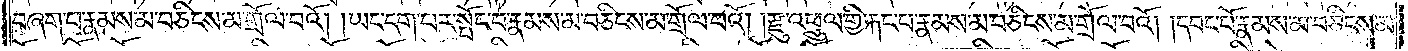བཞག་པ་རྣམས་མ་བཅིངས་མ་གྲོལ་བའོ། །ཡང་དག་པར་སྤོང་བ་རྣམས་མ་བཅིངས་མ་གྲོལ་བའོ། །རྫུ་འཕྲུལ་གྱི་རྐང་པ་རྣམས་མ་བཅིངས་མ་གྲོལ་བའོ། །དབང་པོ་རྣམས་མ་བཅིངས་མ་
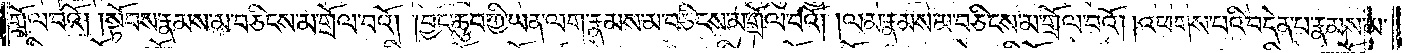གྲོལ་བའོ། །སྟོབས་རྣམས་མ་བཅིངས་མ་གྲོལ་བའོ། །བྱང་ཆུབ་ཀྱི་ཡན་ལག་རྣམས་མ་བཅིངས་མ་གྲོལ་བའོ། །ལམ་རྣམས་མ་བཅིངས་མ་གྲོལ་བའོ། །འཕགས་པའི་བདེན་པ་རྣམས་མ་
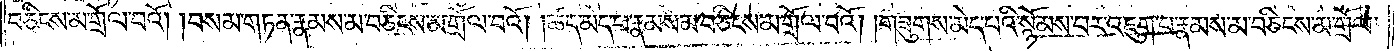བཅིངས་མ་གྲོལ་བའོ། །བསམ་གཏན་རྣམས་མ་བཅིངས་མ་གྲོལ་བའོ། །ཚད་མེད་པ་རྣམས་མ་བཅིངས་མ་གྲོལ་བའོ། །གཟུགས་མེད་པའི་སྙོམས་པར་འཇུག་པ་རྣམས་མ་བཅིངས་མ་གྲོལ་
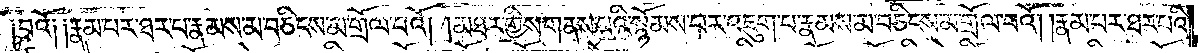བའོ༑ ༑རྣམ་པར་ཐར་པ་རྣམས་མ་བཅིངས་མ་གྲོལ་བའོ། །མཐར་གྱིས་གནས་པའི་སྙོམས་པར་འཇུག་པ་རྣམས་མ་བཅིངས་མ་གྲོལ་བའོ། །རྣམ་པར་ཐར་པའི་
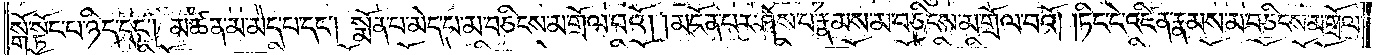སྒོ་སྟོང་པ་ཉིད་དང༌། མཚན་མ་མེད་པ་དང༌། སྨོན་པ་མེད་པ་མ་བཅིངས་མ་གྲོལ་བའོ། །མངོན་པར་ཤེས་པ་རྣམས་མ་བཅིངས་མ་གྲོལ་བའོ། །ཏིང་ངེ་འཛིན་རྣམས་མ་བཅིངས་མ་གྲོལ་
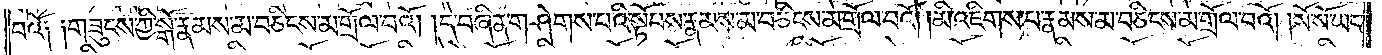བའོ༑ ༑གཟུངས་ཀྱི་སྒོ་རྣམས་མ་བཅིངས་མ་གྲོལ་བའོ། །དེ་བཞིན་གཤེགས་པའི་སྟོབས་རྣམས་མ་བཅིངས་མ་གྲོལ་བའོ། །མི་འཇིགས་པ་རྣམས་མ་བཅིངས་མ་གྲོལ་བའོ། །སོ་སོ་ཡང་
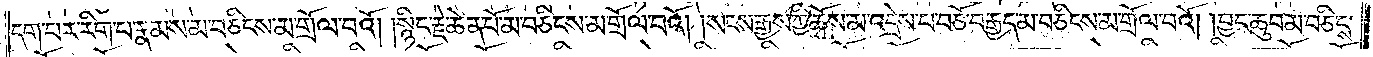དག་པར་རིག་པ་རྣམས་མ་བཅིངས་མ་གྲོལ་བའོ། །སྙིང་རྗེ་ཆེན་པོ་མ་བཅིངས་མ་གྲོལ་བའོ། །སངས་རྒྱས་ཀྱི་ཆོས་མ་འདྲེས་པ་བཅོ་བརྒྱད་མ་བཅིངས་མ་གྲོལ་བའོ། །བྱང་ཆུབ་མ་བཅིངས་
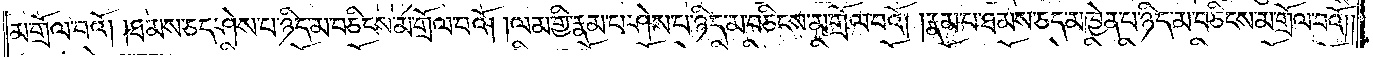མ་གྲོལ་བའོ། ཐམས་ཅད་ཤེས་པ་ཉིད་མ་བཅིངས་མ་གྲོལ་བའོ། །ལམ་གྱི་རྣམ་པ་ཤེས་པ་ཉིད་མ་བཅིངས་མ་གྲོལ་བའོ། །རྣམ་པ་ཐམས་ཅད་མཁྱེན་པ་ཉིད་མ་བཅིངས་མ་གྲོལ་བའོ། །
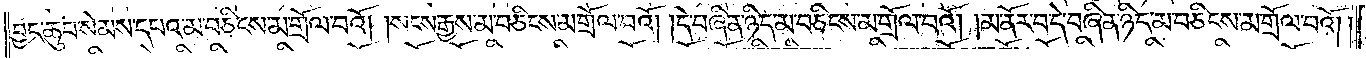བྱང་ཆུབ་སེམས་དཔའ་མ་བཅིངས་མ་གྲོལ་བའོ། །སངས་རྒྱས་མ་བཅིངས་མ་གྲོལ་བའོ། །དེ་བཞིན་ཉིད་མ་བཅིངས་མ་གྲོལ་བའོ། །མ་ནོར་བ་དེ་བཞིན་ཉིད་མ་བཅིངས་མ་གྲོལ་བའོ༎
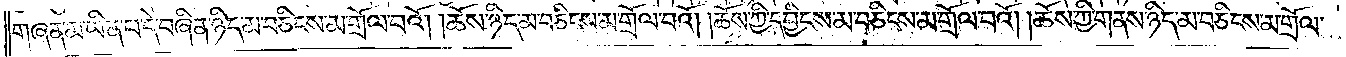གཞན་མ་ཡིན་པ་དེ་བཞིན་ཉིད་མ་བཅིངས་མ་གྲོལ་བའོ། །ཆོས་ཉིད་མ་བཅིངས་མ་གྲོལ་བའོ། །ཆོས་ཀྱི་དབྱིངས་མ་བཅིངས་མ་གྲོལ་བའོ། །ཆོས་ཀྱི་གནས་ཉིད་མ་བཅིངས་མ་གྲོལ་
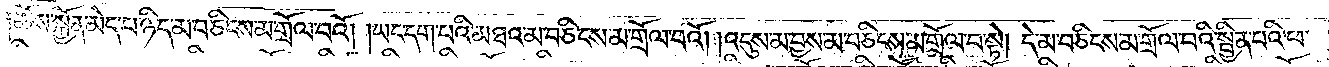ཆོས་སྐྱོན་མེད་པ་ཉིད་མ་བཅིངས་མ་གྲོལ་བའོ། ཡང་དག་པའི་མཐའ་མ་བཅིངས་མ་གྲོལ་བའོ། འདུས་མ་བྱས་མ་བཅིངས་མ་གྲོལ་བ་སྟེ། །དེ་མ་བཅིངས་མ་གྲོལ་བའི་སྦྱིན་པའི་ཕ་
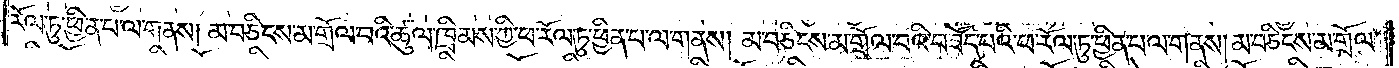རོལ་ཏུ་ཕྱིན་པ་ལ་གནས། མ་བཅིངས་མ་གྲོལ་བའི་ཚུལ་ཁྲིམས་ཀྱི་ཕ་རོལ་ཏུ་ཕྱིན་པ་ལ་གནས། མ་བཅིངས་མ་གྲོལ་བའི་བཟོད་པའི་ཕ་རོལ་ཏུ་ཕྱིན་པ་ལ་གནས། མ་བཅིངས་མ་གྲོལ་
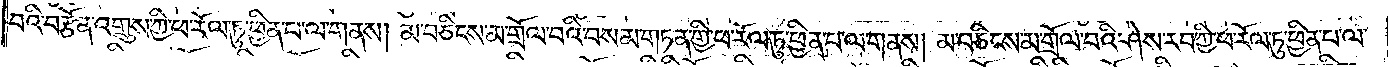བའི་བརྩོན་འགྲུས་ཀྱི་ཕ་རོལ་ཏུ་ཕྱིན་པ་ལ་གནས། མ་བཅིངས་མ་གྲོལ་བའི་བསམ་གཏན་གྱི་ཕ་རོལ་ཏུ་ཕྱིན་པ་ལ་གནས། མ་བཅིངས་མ་གྲོལ་བའི་ཤེས་རབ་ཀྱི་ཕ་རོལ་ཏུ་ཕྱིན་པ་ལ་
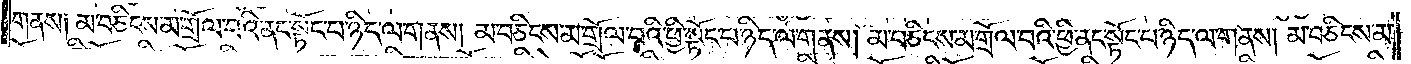གནས། མ་བཅིངས་མ་གྲོལ་བའི་ནང་སྟོང་པ་ཉིད་ལ་གནས། མ་བཅིངས་མ་གྲོལ་བའི་ཕྱི་སྟོང་པ་ཉིད་ལ་གནས། མ་བཅིངས་མ་གྲོལ་བའི་ཕྱི་ནང་སྟོང་པ་ཉིད་ལ་གནས། མ་བཅིངས་མ་
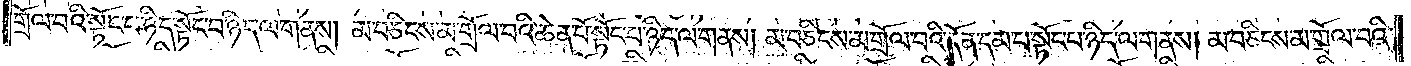གྲོལ་བའི་སྟོང་པ་ཉིད་སྟོང་པ་ཉིད་ལ་གནས། མ་བཅིངས་མ་གྲོལ་བའི་ཆེན་པོ་སྟོང་པ་ཉིད་ལ་གནས། མ་བཅིངས་མ་གྲོལ་བའི་དོན་དམ་པ་སྟོང་པ་ཉིད་ལ་གནས། མ་བཅིངས་མ་གྲོལ་བའི་
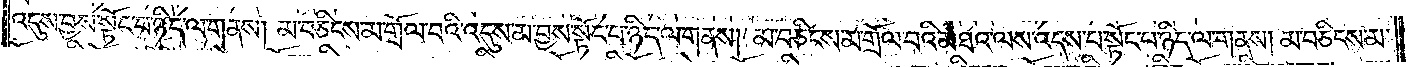འདུས་བྱས་སྟོང་པ་ཉིད་ལ་གནས། མ་བཅིངས་མ་གྲོལ་བའི་འདུས་མ་བྱས་སྟོང་པ་ཉིད་ལ་གནས། མ་བཅིངས་མ་གྲོལ་བའི་མཐའ་ལས་འདས་པ་སྟོང་པ་ཉིད་ལ་གནས། མ་བཅིངས་མ་
